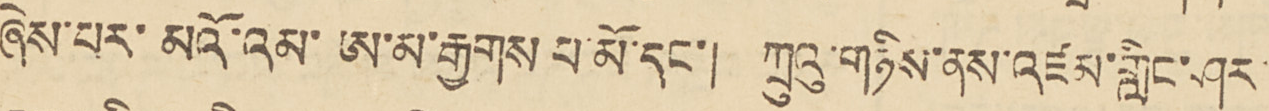ཞེས་པར་མའོ་འམ་ཨ་མ་རྒྱགས པ་མོ་དང་། ཀྲུའུ་གཉིས་ནས་འཛམ་གླིང་ཤར
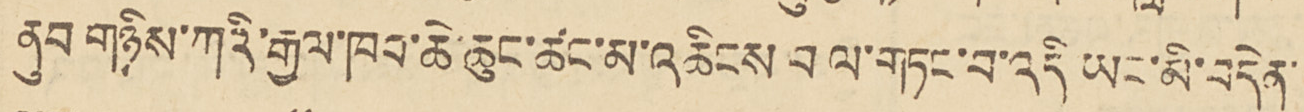ནུབ གཉིས་ཀའི་རྒྱལ་ཁབ་ཆེ་ཆུང་ཚང་མ་འཆིངས བ ལ་གཏང་བ་འདི ཡང་མི་བདེན་
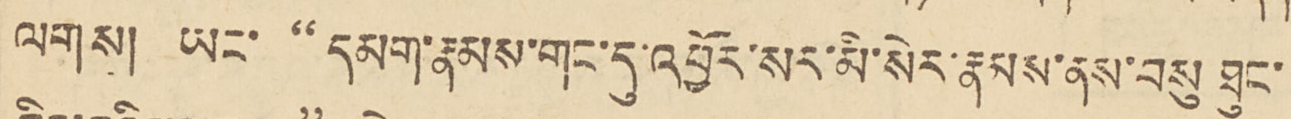ལགས། ཡང་ "དམག་རྣམས་གང་དུ་འབྱོར་སར་མི་སེར་རྣམས་ནས་བསུ ཐུང་
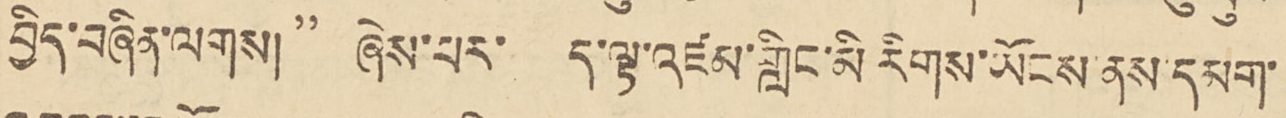བྱེད་བཞིན་ལགས།" ཞེས་པར་ ད་ལྟ་འཛམ་གླིང་མི་རིགས་ཡོངས་ནས་དམག་
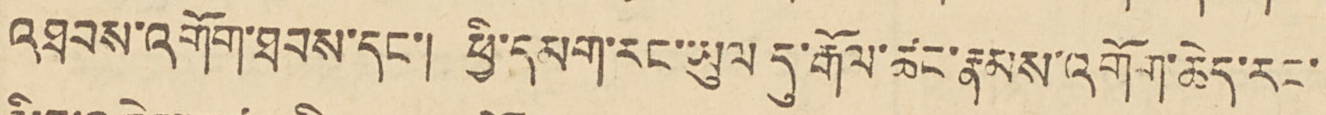འཐབས་འགོག་ཐབས་དང་། ཕྱི་དམག་རང་ཡུལ དུ་རྒོལ་རྣམས་འགོག་ཆེད་རང་
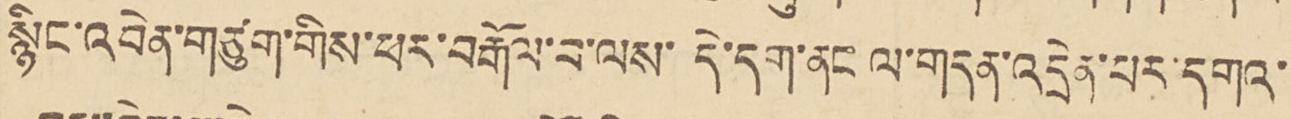སྙིང་འབེན་གཙུག་གིས་ཕར་བརྒོལ་བ་ལས་དེ་དག་ནང་ལ་གདན་འདྲེན་པར་དགའ་
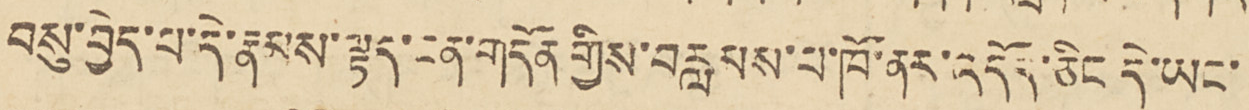བསུ་བྱེད་པ་དེ་རྣམས་ལྟད་ངན་གདོན གྱིས་བརླབས་པ་ཁོ་ནར་འདོད་ཅིང དེ་ཡང་
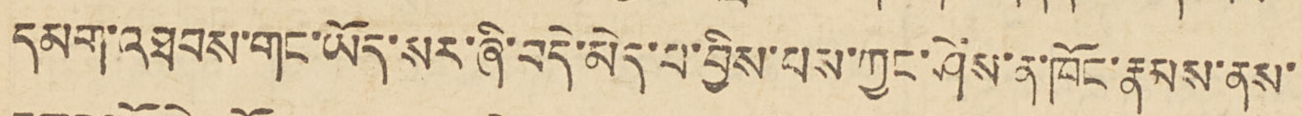དམག་འཐབས་གང་ཡོད་སར་ཞི་བདེ་མེད་པ་བྱིས་པས་ཀྱང་ཤེས་ན་ཁོང་རྣམས་ནས་
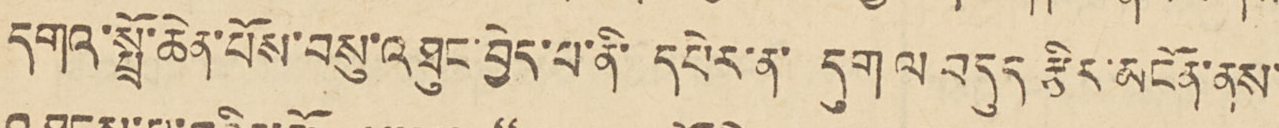དགའ་སྤྲོ་ཆེན་པོས་བསུ་འཐུང་བྱེད་པ་ནི་དཔེར་ན་དུག ལ བདུད རྩིར་མངོན་ནས་
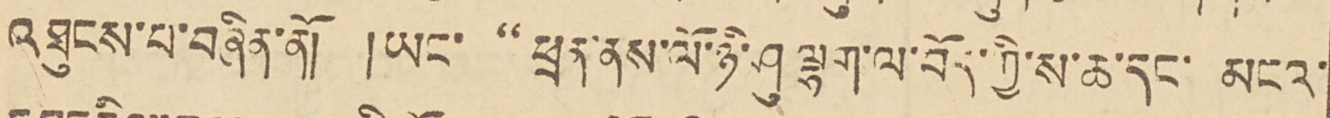འཐུངས་པ་བཞིན་ནོ། །ཡང་ " ཕྲན་ནས་ལོ་ཉི་ཤུ ལྷག་ལ་བོད་ཀྱི་ས་ཆ་དང་མངའ་
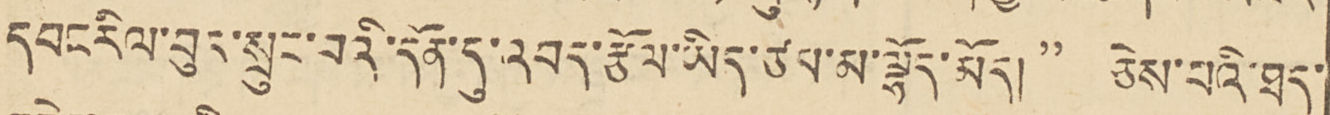དབང རིལ་བུར་སྲུང་བའི་དོན་དུ་འབད་རྩོལ་ཡིད་ཙམ་མ་ལྷོད་མོད།" ཅེས་པའི་ཐད་
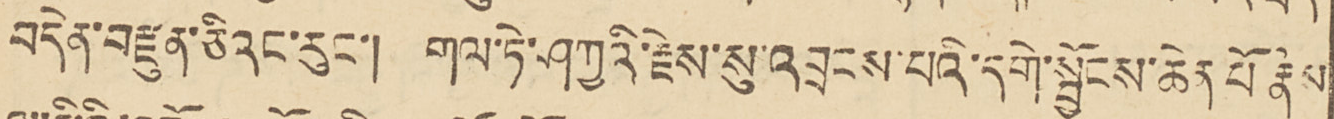བདེན་བརྫུན་ཅིའང་རུང་། གལ་ཏེ་ཤཀྱའི་རྗེས་སུ་འབྲངས་པའི་དགེ་སྦྱོངས་ཆེན་པོ རྣམ
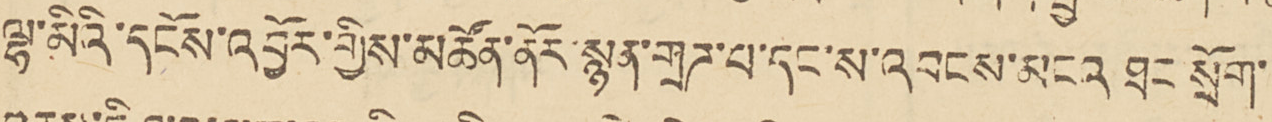ལྷ་མིའི་དངོས་འབྱོར་གྱིས་མཚོན་ནོར་སྙན་གྲཌ་པོ་དང་འབངས་མངའ ཐང སྲོག་
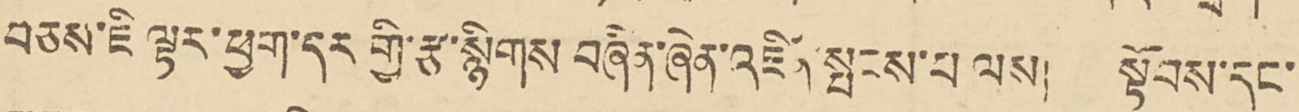བཅས་ཇི་ལྟར་ཕྱག་དར གྱི་རྩ་སྙིགས བཞིན་ཞེན་འཛིན་སྤངས་པ ལས། །སྟོབས་དང་
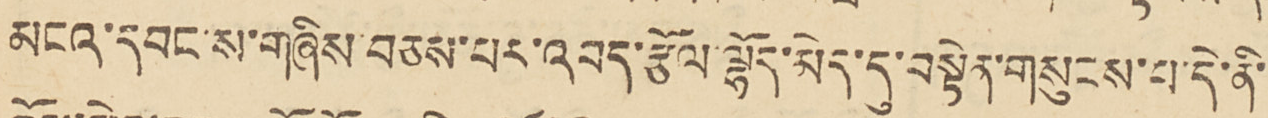མངའ་དབང་ས་གཞིས་བཅས་པར་འབད་རྩོལ་ལྷོད་མེད་དུ་བསྟེན་གསུངས་པ་དེ་ནི་
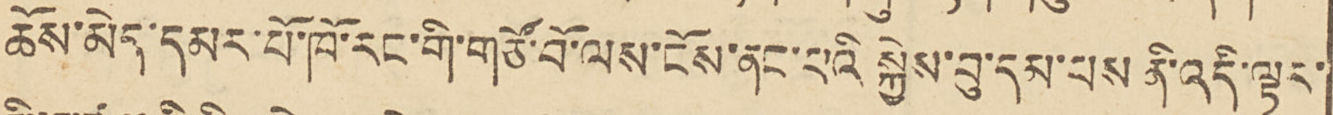ཆོས་མེད་དམར་པོ་ཁོ་རང་གི་གཙོ་བོ་ལས་ངོས་ནང་པའི སྐྱེས་བུ་དམ་པས ནི་འདི་ལྟར་
